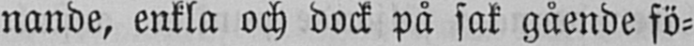nande, enkla och dock på sak gående fö-
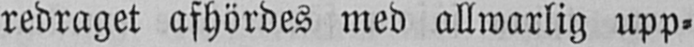redraget afhördes med allwarlig upp-
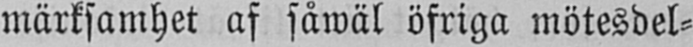märksamhet af såwäl öfriga mötesdel-
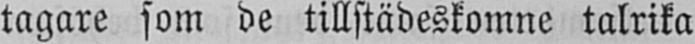tagare som de tillstädeskomne talrika
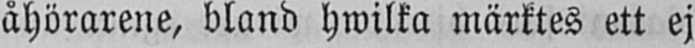åhörarene, bland hwilka märktes ett ej
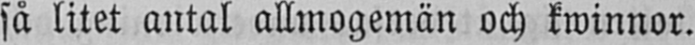så litet antal allmogemän och kwinnor.
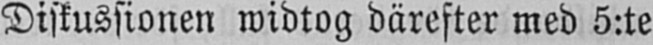Diskussionen widtog därefter med 5:te
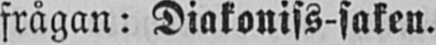frågan: Diakoniss-saken.
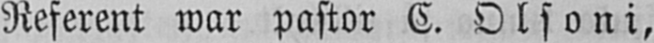Referent war pastor C. Olsoni,
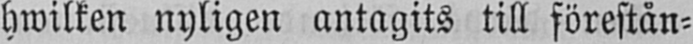hwilken nyligen antagits till förestån-
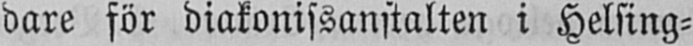dare för diakonissanstalten i Helsing-
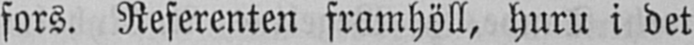fors. Referenten framhöll, huru i det
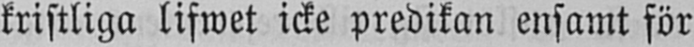kristliga lifwet icke predikan ensamt för
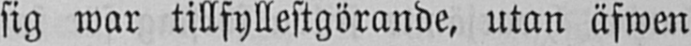sig war tillfyllestgörande, utan äfwen
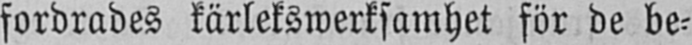fordrades kärlekswerksamhet för de be-
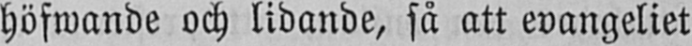höfwande och lidande, så att evangeliet
